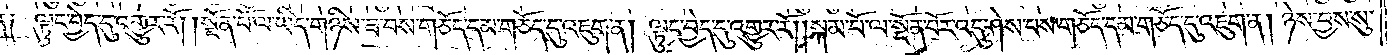ན། ལྟུང་བྱེད་དུ་འགྱུར་རོ། །སྔོན་པོ་ལ་ཡིད་གཉིས་ཟ་བས་གཅོད་དམ་གཅོད་དུ་འཇུག་ན། ལྟུང་བྱེད་དུ་འགྱུར་རོ། །སྐམ་པོ་ལ་སྔོན་པོར་འདུ་ཤེས་པས་གཅོད་དམ་གཅོད་དུ་འཇུག་ན། ཉེས་བྱས་སུ་
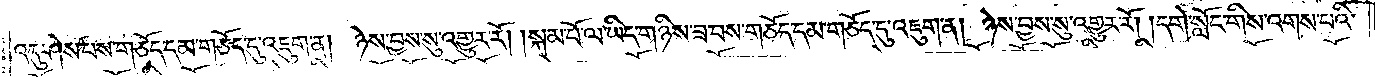འདུ་ཤེས་པས་གཅོད་དམ་གཅོད་དུ་འཇུག་ན། ཉེས་བྱས་སུ་འགྱུར་རོ། །སྐམ་པོ་ལ་ཡིད་གཉིས་ཟ་བས་གཅོད་དམ་གཅོད་དུ་འཇུག་ན། ཉེས་བྱས་སུ་འགྱུར་རོ། །དགེ་སློང་གིས་འགས་པའི་
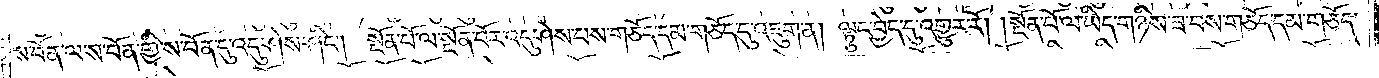ས་བོན་ལ་ས་བོན་གྱི་ས་བོན་དུ་འདུ་ཤེས་ཤིང༌། སྔོན་པོ་ལ་སྔོན་པོར་འདུ་ཤེས་པས་གཅོད་དམ་གཅོད་དུ་འཇུག་ན། ལྟུང་བྱེད་དུ་འགྱུར་རོ། །སྔོན་པོ་ལ་ཡིད་གཉིས་ཟ་བས་གཅོད་དམ་གཅོད་
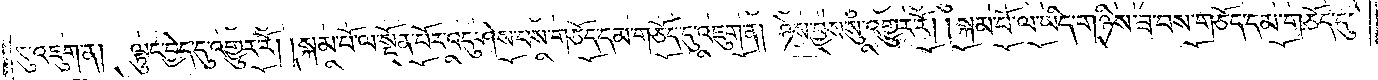དུ་འཇུག་ན། ལྟུང་བྱེད་དུ་འགྱུར་རོ། །སྐམ་པོ་ལ་སྔོན་པོར་འདུ་ཤེས་པས་གཅོད་དམ་གཅོད་དུ་འཇུག་ན། ཉེས་བྱས་སུ་འགྱུར་རོ། །སྐམ་པོ་ལ་ཡིད་གཉིས་ཟ་བས་གཅོད་དམ་གཅོད་དུ་
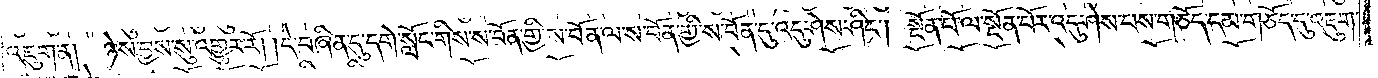འཇུག་ན། ཉེས་བྱས་སུ་འགྱུར་རོ། །དེ་བཞིན་དུ་དགེ་སློང་གིས་ས་བོན་གྱི་ས་བོན་ལ་ས་བོན་གྱི་ས་བོན་དུ་འདུ་ཤེས་ཤིང༌། སྔོན་པོ་ལ་སྔོན་པོར་འདུ་ཤེས་པས་གཅོད་དམ་གཅོད་དུ་འཇུག་
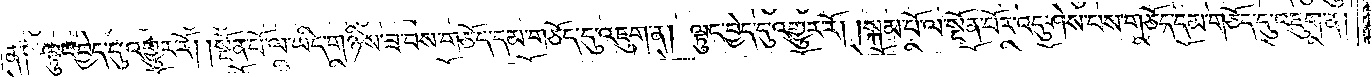ན། ལྟུང་བྱེད་དུ་འགྱུར་རོ། །སྔོན་པོ་ལ་ཡིད་གཉིས་ཟ་བས་གཅོད་དམ་གཅོད་དུ་འཇུག་ན། ལྟུང་བྱེད་དུ་འགྱུར་རོ། །སྐམ་པོ་ལ་སྔོན་པོར་འདུ་ཤེས་པས་གཅོད་དམ་གཅོད་དུ་འཇུག་ན།
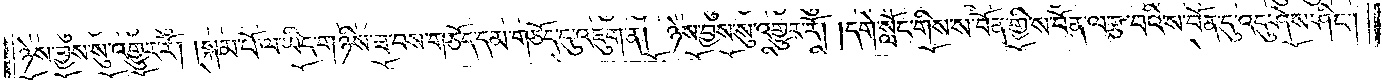ཉེས་བྱས་སུ་འགྱུར་རོ། །སྐམ་པོ་ལ་ཡིད་གཉིས་ཟ་བས་གཅོད་དམ་གཅོད་དུ་འཇུག་ན། ཉེས་བྱས་སུ་འགྱུར་རོ། །དགེ་སློང་གིས་ས་བོན་གྱི་ས་བོན་ལ་རྩ་བའི་ས་བོན་དུ་འདུ་ཤེས་ཤིང༌།
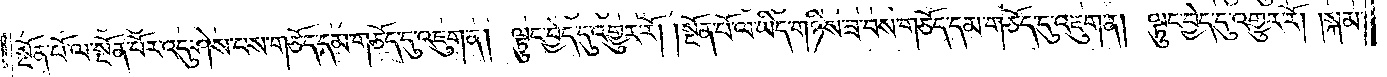སྔོན་པོ་ལ་སྔོན་པོར་འདུ་ཤེས་པས་གཅོད་དམ་གཅོད་དུ་འཇུག་ན། ལྟུང་བྱེད་དུ་འགྱུར་རོ། །སྔོན་པོ་ལ་ཡིད་གཉིས་ཟ་བས་གཅོད་དམ་གཅོད་དུ་འཇུག་ན། ལྟུང་བྱེད་དུ་འགྱུར་རོ། །སྐམ་
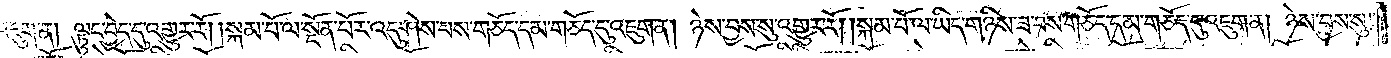འཇུག་ན། ལྟུང་བྱེད་དུ་འགྱུར་རོ། །སྐམ་པོ་ལ་སྔོན་པོར་འདུ་ཤེས་པས་གཅོད་དམ་གཅོད་དུ་འཇུག་ན། ཉེས་བྱས་སུ་འགྱུར་རོ། །སྐམ་པོ་ལ་ཡིད་གཉིས་ཟ་བས་གཅོད་དམ་གཅོད་དུ་འཇུག་ན། ཉེས་བྱས་སུ་
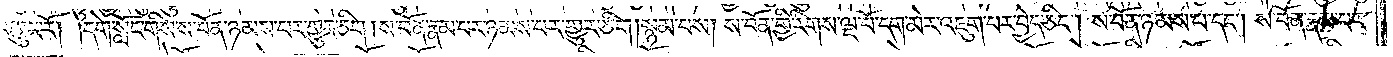འགྱུར་རོ། །དགེ་སློང་གིས་ས་བོན་ཉམས་པར་གྱུར་ཅིག །ས་བོན་རྣམ་པར་ཉམས་པར་གྱུར་ཅིག། སྙམ་པས། ས་བོན་གྱི་རིགས་ལྔ་པོ་དག་མེར་འཇུག་པར་བྱེད་ཅིང༌། ས་བོན་ཉམས་པ་དང༌། ས་བོན་རྣམ་པར་
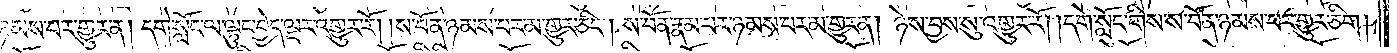ཉམས་པར་གྱུར་ན། དགེ་སློང་ལ་ལྟུང་བྱེད་ལྔར་འགྱུར་རོ། །ས་བོན་ཉམས་པར་མ་གྱུར་ཅིང༌། ས་བོན་རྣམ་པར་ཉམས་པར་མ་གྱུར་ན། ཉེས་བྱས་སུ་འགྱུར་རོ། །དགེ་སློང་གིས་ས་བོན་ཉམས་པར་གྱུར་ཅིག།
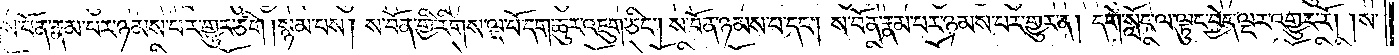ས་བོན་རྣམ་པར་ཉམས་པར་གྱུར་ཅིག །སྙམ་པས། ས་བོན་གྱི་རིགས་ལྔ་པོ་དག་ཆུར་འཇུག་ཅིང༌། ས་བོན་ཉམས་པ་དང༌། ས་བོན་རྣམ་པར་ཉམས་པར་གྱུར་ན། དགེ་སློང་ལ་ལྟུང་བྱེད་ལྔར་འགྱུར་རོ། །ས་
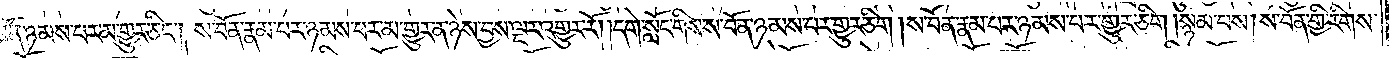བོན་ཉམས་པར་མ་གྱུར་ཅིང༌། ས་བོན་རྣམ་པར་ཉམས་པར་མ་གྱུར་ན་ཉེས་བྱས་ལྔར་འགྱུར་རོ། །དགེ་སློང་གིས་ས་བོན་ཉམས་པར་གྱུར་ཅིག །ས་བོན་རྣམ་པར་ཉམས་པར་གྱུར་ཅིག། སྙམ་པས། ས་བོན་གྱི་རིགས་
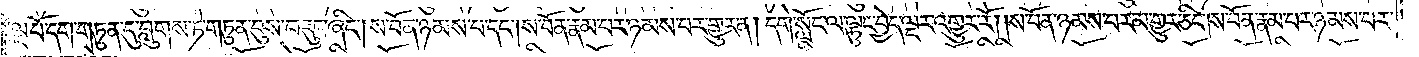ལྔ་པོ་དག་གཏུན་དུ་བླུགས་ཏེ་གཏུན་བུས་བརྡུང་ཞིང༌། ས་བོན་ཉམས་པ་དང༌། ས་བོན་རྣམ་པར་ཉམས་པར་གྱུར་ན། དགེ་སློང་ལ་ལྟུང་བྱེད་ལྔར་འགྱུར་རོ། །ས་བོན་ཉམས་པར་མ་གྱུར་ཅིང༌། ས་བོན་རྣམ་པར་ཉམས་པར་
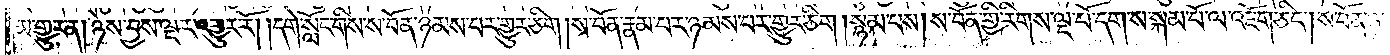མ་གྱུར་ན། ཉེས་བྱས་ལྔར་འགྱུར་རོ། །དགེ་སློང་གིས་ས་བོན་ཉམས་པར་གྱུར་ཅིག། ས་བོན་རྣམ་པར་ཉམས་པར་གྱུར་ཅིག། སྙམ་པས། ས་བོན་གྱི་རིགས་ལྔ་པོ་དག་ས་སྐམ་པོ་ལ་འཇོག་ཅིང༌། ས་བོན་ཉ
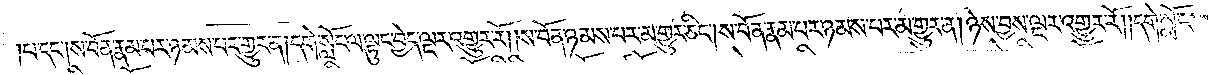པ་དང༌། ས་བོན་རྣམ་པར་ཉམས་པར་གྱུར་ན། དགེ་སློང་ལ་ལྟུང་བྱེད་ལྔར་འགྱུར་རོ། །ས་བོན་ཉམས་པར་མ་གྱུར་ཅིང༌། ས་བོན་རྣམ་པར་ཉམས་པར་མ་གྱུར་ན། ཉེས་བྱས་ལྔར་འགྱུར་རོ། །དགེ་སློང་
